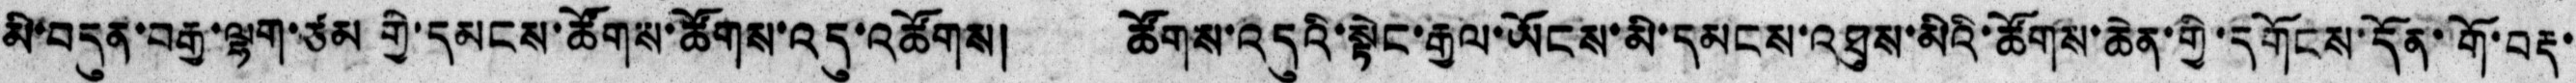མི་བདུན་བརྒྱ་ལྷག་ཙམ གྱི་དམངས་ཚོགས་ཚོགས་འདུ་འཚོགས། ཚོགས་འདུའི་སྟེང་རྒྱལ་ཡོངས་མི་དམངས་འཐུས་མིའི་ཚོགས་ཆེན་གྱི་དགོངས་དོན་གོ་བརྡ་
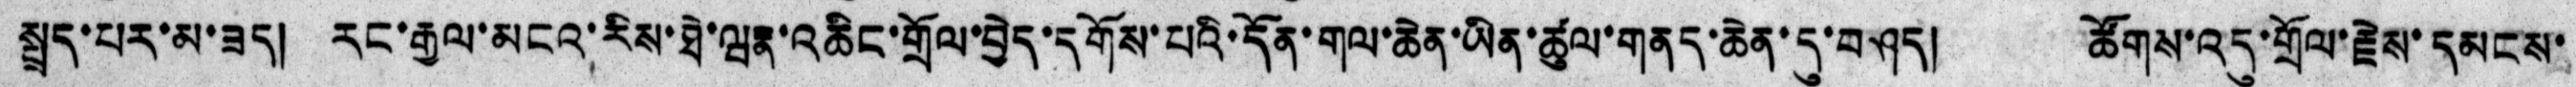སྤྲད་པར་མ་ཟད། རང་རྒྱལ་མངའ་རིས་ཐེ་ཝན་འཆིང་གྲོལ་བྱེད་དགོས་པའི་དོན་གལ་ཆེན་ཡིན་ཚུལ་གནད་ཆེན་དུ་བཤད། ཚོགས་འདུ་གྲོལ་རྗེས་དམངས་
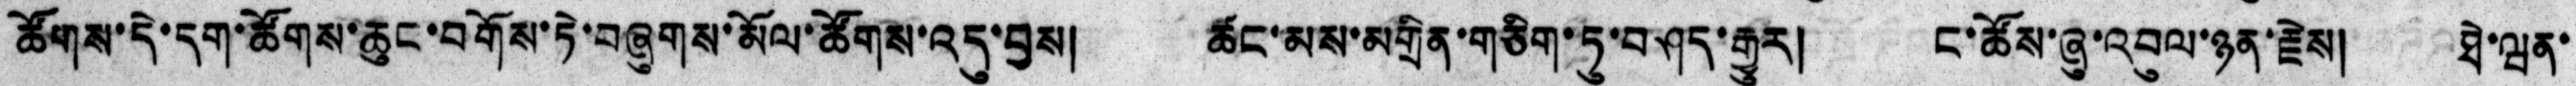ཚོགས་དེ་དག་ཚོགས་ཆུང་བགོས་ཏེ་བཞུགས་མོལ་ཚོགས་འདུ་བྱས། ཚང་མས་མགྲིན་གཅིག་ཏུ་བཤད་རྒྱུར། ང་ཚོས་ཞུ་འབུལ་ཉན་རྗེས། ཐེ་ཝན་
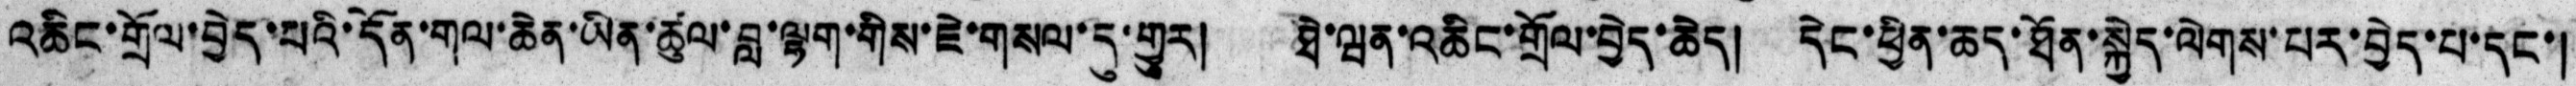འཆིང་གྲོལ་བྱེད་པའི་དོན་གལ་ཆེན་ཡིན་ཚུལ་བླ་ལྷག་གིས་ཇེ་གསལ་དུ་གྱུར། ཐེ་ཝན་འཆིང་གྲོལ་བྱེད་ཆེད། དེང་ཕྱིན་ཆད་ཐོན་སྐྱེད་ལེགས་པར་བྱེད་པ་དང་།
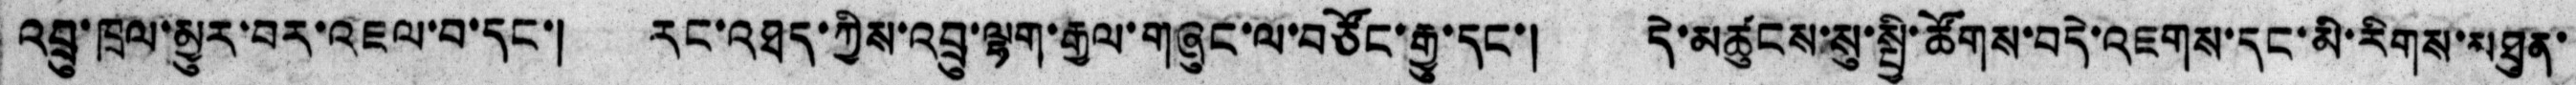འབྲུ་ཁྲལ་མྱུར་བར་འཇལ་བ་དང་། རང་འཐད་ཀྱིས་འབྲུ་ལྷག་རྒྱལ་གཞུང་ལ་བཙོང་རྒྱུ་དང་། དེ་མཚུངས་སུ་སྤྱི་ཚོགས་བདེ་འཇགས་དང་མི་རིགས་མཐུན་
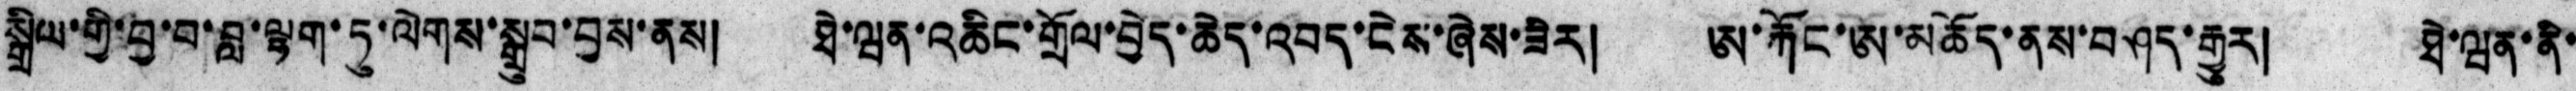སྒྲིལ་གྱི་བྱ་བ་བླ་ལྷག་ཏུ་ལེགས་སྒྲུབ་བྱས་ནས། ཐེ་ཝན་འཆིང་གྲོལ་བྱེད་ཆེད་འབད་ངེས་ཞེས་ཟེར། ཨ་རྐོང་ཨོ་མཆོད་ནས་བཤད་རྒྱུར། ཐེ་ཝན་ནི་
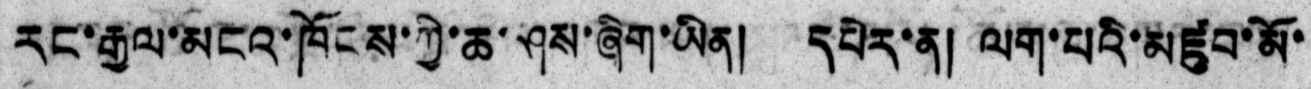རང་རྒྱལ་མངའ་ཁོངས་ཀྱི་ཆ་ཤས་ཞིག་ཡིན། དཔེར་ན། ལག་པའི་མཛུབ་མོ་
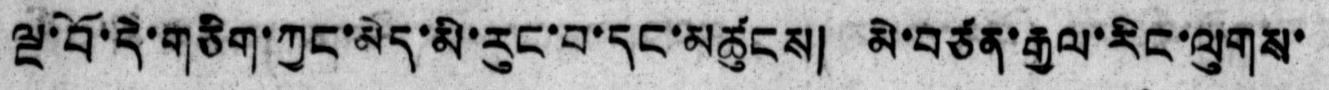ལྔ་བོ་དེ་གཅིག་ཀྱང་མེད་མི་རུང་བ་དང་མཚུངས། མི་བཙན་རྒྱལ་རིང་ལུགས་
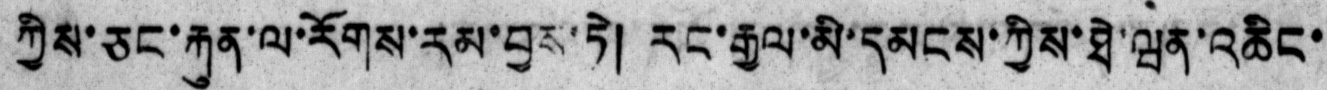ཀྱིས་ཅང་རྐུན་ལ་རོགས་རམ་བྱས་ཏེ། རང་རྒྱལ་མི་དམངས་ཀྱིས་ཐེ་ཝན་འཆིང་
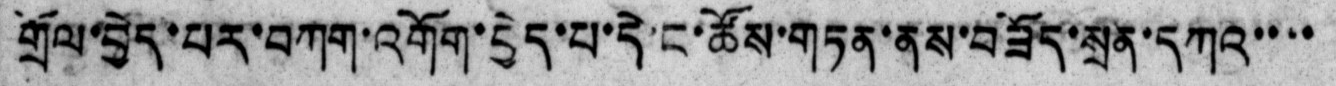གྲོལ་བྱེད་པར་བཀག་འགོག་བྱེད་པ་དེ་ང་ཚོས་གཏན་ནས་བཟོད་སྲན་དཀའ་་་་
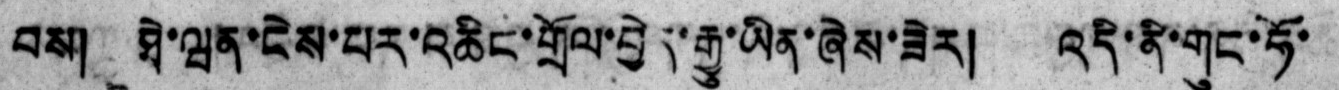བས། ཐེ་ཝན་ངེས་པར་འཆིང་གྲོལ་བྱེད་རྒྱུ་ཡིན་ཞེས་ཟེར། འདི་ནི་གུང་ཧོ་
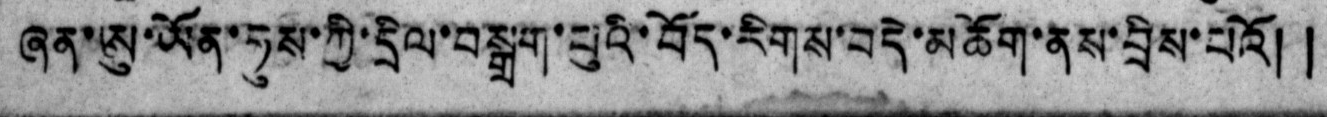ཞན་ཨུ་ཡོན་ཧུས་ཀྱི་དྲིལ་བསྒྲག་པུའི་བོད་རིགས་བདེ་མཆོག་ནས་བྲིས་པའོ། །
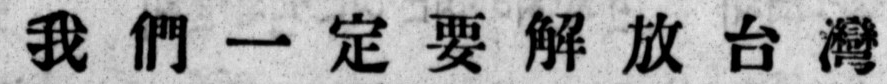我 們 一 定 要 解 放 台 灣
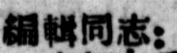編輯同志：
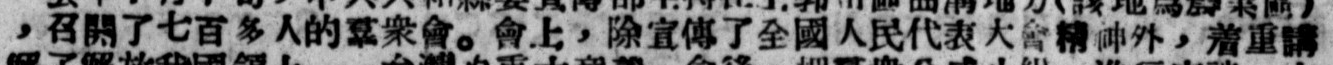，召開了七百多人的羣衆會。會上，除宣傳了全國人民代表大會精神外，着重講
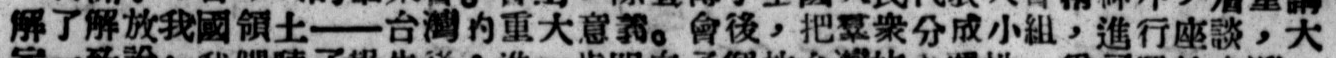解了解放我國領土——台灣的重大意義。會後，把羣衆分成小組，進行座談，大
